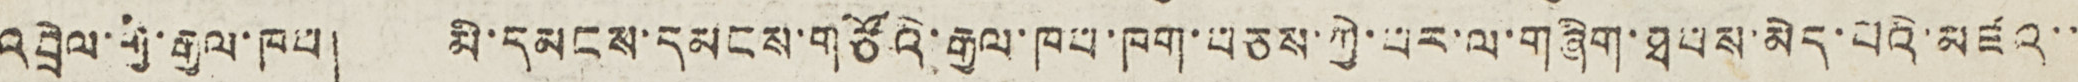འབྲེལ་གྱི་རྒྱལ་ཁབ། མི་དམངས་དམངས་གཙོའི་རྒྱལ་ཁབ་བཅས་ཀྱི་པར་ལ་གཞིག་ཐབས་མེད་པའི་མཛའ་་
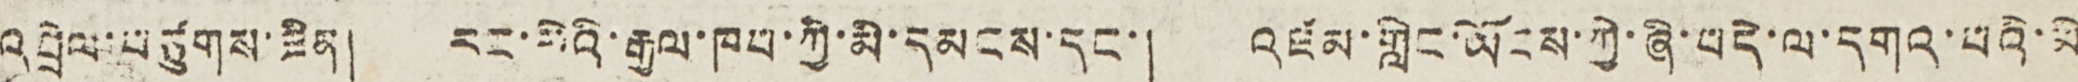འབྲེལ་བཙུགས་ཟིན། རང་རེའི་རྒྱལ་ཁབ་ཀྱི་མི་དམངས་དང་། འཛམ་གླིང་ཡོངས་ཀྱི་ཞི་བདེ་ལ་དགའ་བའི་མི
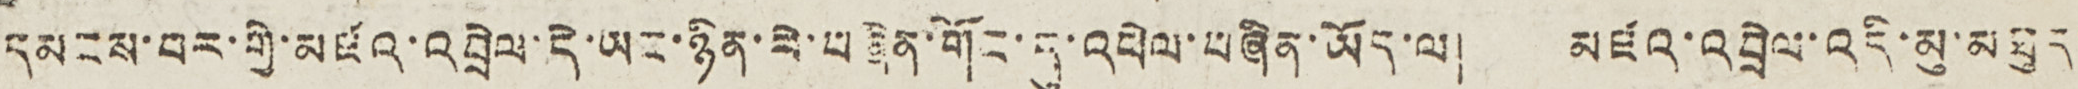དམངས་བར་གྱི་མཛའ་འབྲེལ་དེ་ཡང་ཉིན་རེ་བཞིན་གོང་དུ་འཕེལ་བཞིན་ཡོད་ལ། མཛའ་འབྲེལ་འདི་མུ་མཐུད་
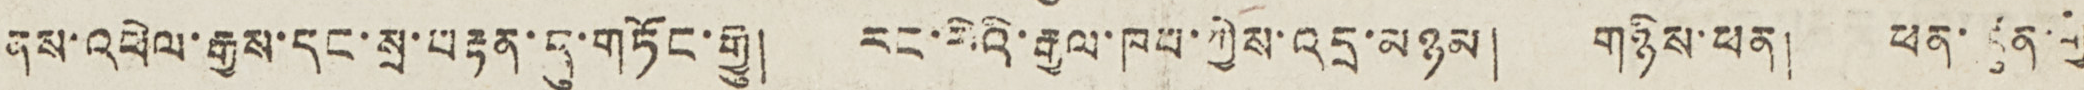ནས་འཕེལ་རྒྱས་དང་སྲ་བརྟན་དུ་གཏོང་རྒྱུ། རང་རེའི་རྒྱལ་ཁབ་ཀྱིས་འདྲ་མཉམ། གཉིས་ཕན། ཕན་ཚུན་གྱི
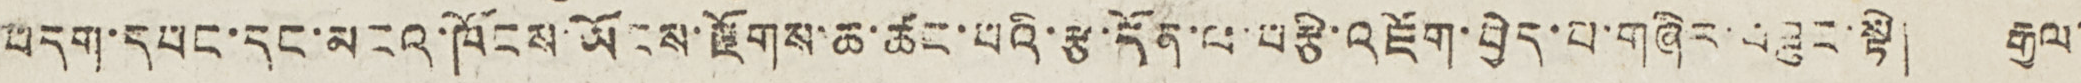བདག་དཔང་དང་མངའ་ཁོངས་ཡོངས་རྫོགས་ཆ་ཚང་པའི་རྩ་དོན་པ་བརྩི་འཇོག་བྱེད་པ་གཞིང་བཟུང་སྟེ། རྒྱལ་
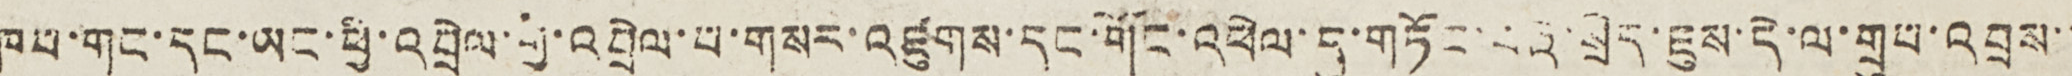ཁབ་གང་དང་ཡང་ཕྱི་འབྲེལ་གྱི་འབྲེལ་པ་གསར་འཛུགས་དང་གོང་འཕེལ་དུ་གཏོང་བའི་སྲིད་ཇུས་དེ་ལ་གྲུབ་འབྲས་་
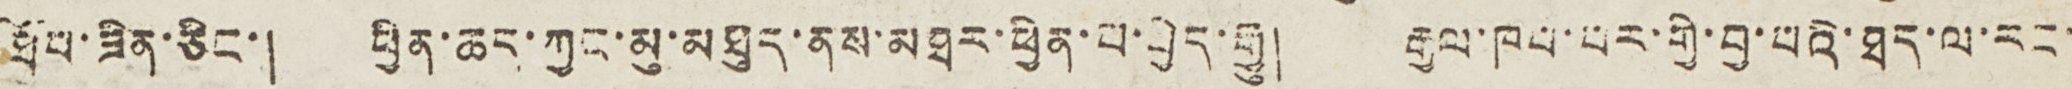ཐོབ་ཟིན་ཅིང་། ཕྱིན་ཆད་ཀྱང་མུ་མཐུད་ནས་མཐར་ཕྱིན་པ་བྱེད་རྒྱུ། རྒྱལ་ཁབ་བར་གྱི་བྱ་བའི་ཐད་རང་་
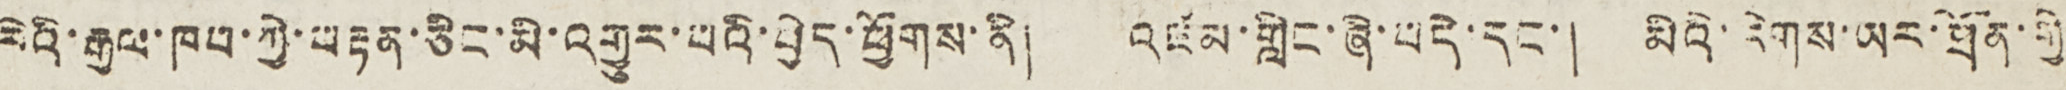རེའི་རྒྱལ་ཁབ་ཀྱི་བརྟན་ཅིང་མི་འགྱུར་བའི་བྱེད་ཕྱོགས་ནི། འཛམ་གླིང་ཞི་བདེ་དང་། མིའི་རིགས་ཡར་ཐོན་གྱི་
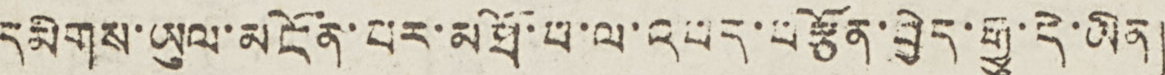དམིགས་ཡུལ་མངོན་པར་མཐོ་བ་ལ་འབད་བརྩོན་བྱེད་རྒྱུ་དེ་ཡིན།
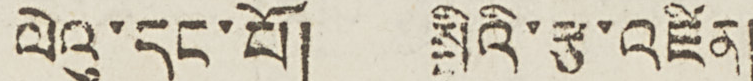ལེའུ་དང་པོ། སྤྱིའི་རྩ་འཛིན།
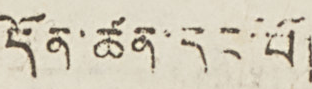དོན་ཚན་དང་པོ།
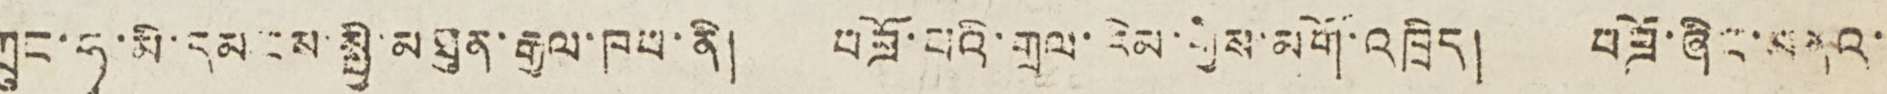ཀྲུང་ཧྭ་མི་དམངས་སྤྱི་མཐུན་རྒྱལ་ཁབ་ནི། བཟོ་པའི་གྲལ་རེམ་གྱིས་མགོ་འཁྲིད། བཟོ་ཞིང་མནའ་་
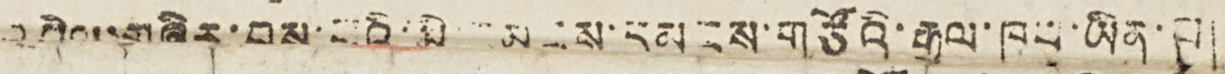འབྲེལ་གཞིར་བྱས་པའི་མི་དམངས་དམངས་གཙོའི་རྒྱལ་ཁབ་ཡིན་པ།
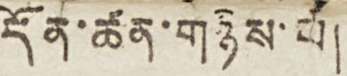དོན་ཚན་གཉིས་པ།
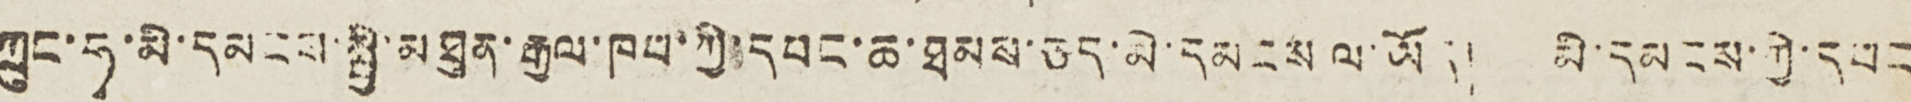ཀྲུང་ཧྭ་མི་དམངས་སྤྱི་མཐུན་རྒྱལ་ཁབ་ཀྱི་དབང་ཆ་ཐམས་ཅད་མི་དམངས ལ་ཡོད། མི་དམངས་ཀྱི་དབང
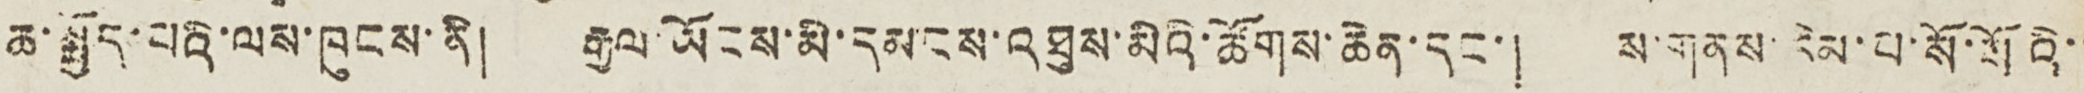ཆ་སྤྱོད་པའི་ལས་ཁུངས་ནི། རྒྱལ་ཡོངས་མི་དམངས་འཐུས་མིའི་ཚོགས་ཆེན་དང་། ས་གནས་རིམ་པ་སོ་སོའི་་
